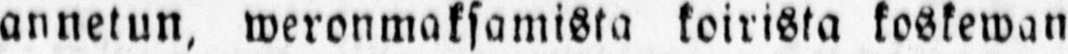annetun, weronmaksamista koirista koskewan
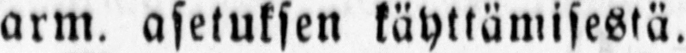arm. asetuksen käyttämisestä.
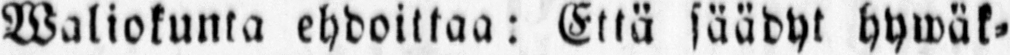Waliokunta ehdoittaa: Että säädyt hywäk-
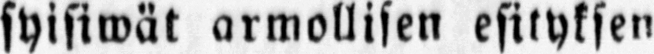syisiwät armollisen esityksen
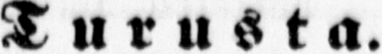Turusta.
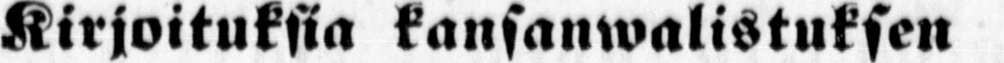Kirjoituksia kansanwalistuken
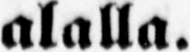alalla.
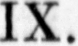IX.
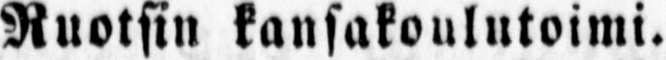Ruotsin kansakoulutoimi.
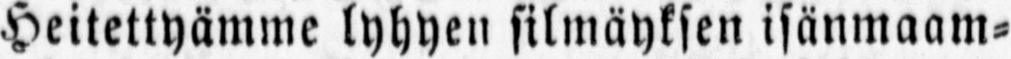Heitettyämme lyhyen silmäyksen isänmaam-
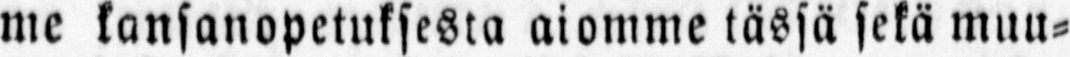me kansanopetuksesta aiomme tässä sekä muu-
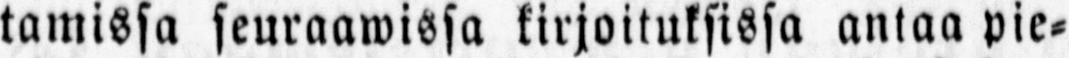tamissa seuraawissa kirjoituksissa antaa pie-
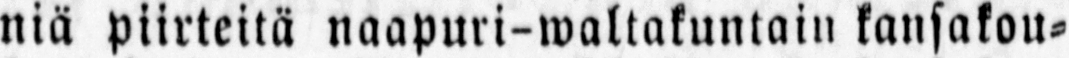niä piirteitä naapuri-waltakuntain kansakou-
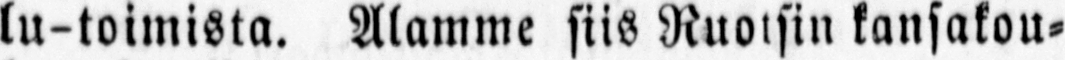lu-toimista. Alamme siis Ruotsin kansakou-
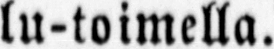lu-toimella.
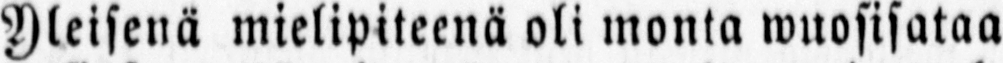Yleisenä mielipiteenä oli monta wuosisataa
